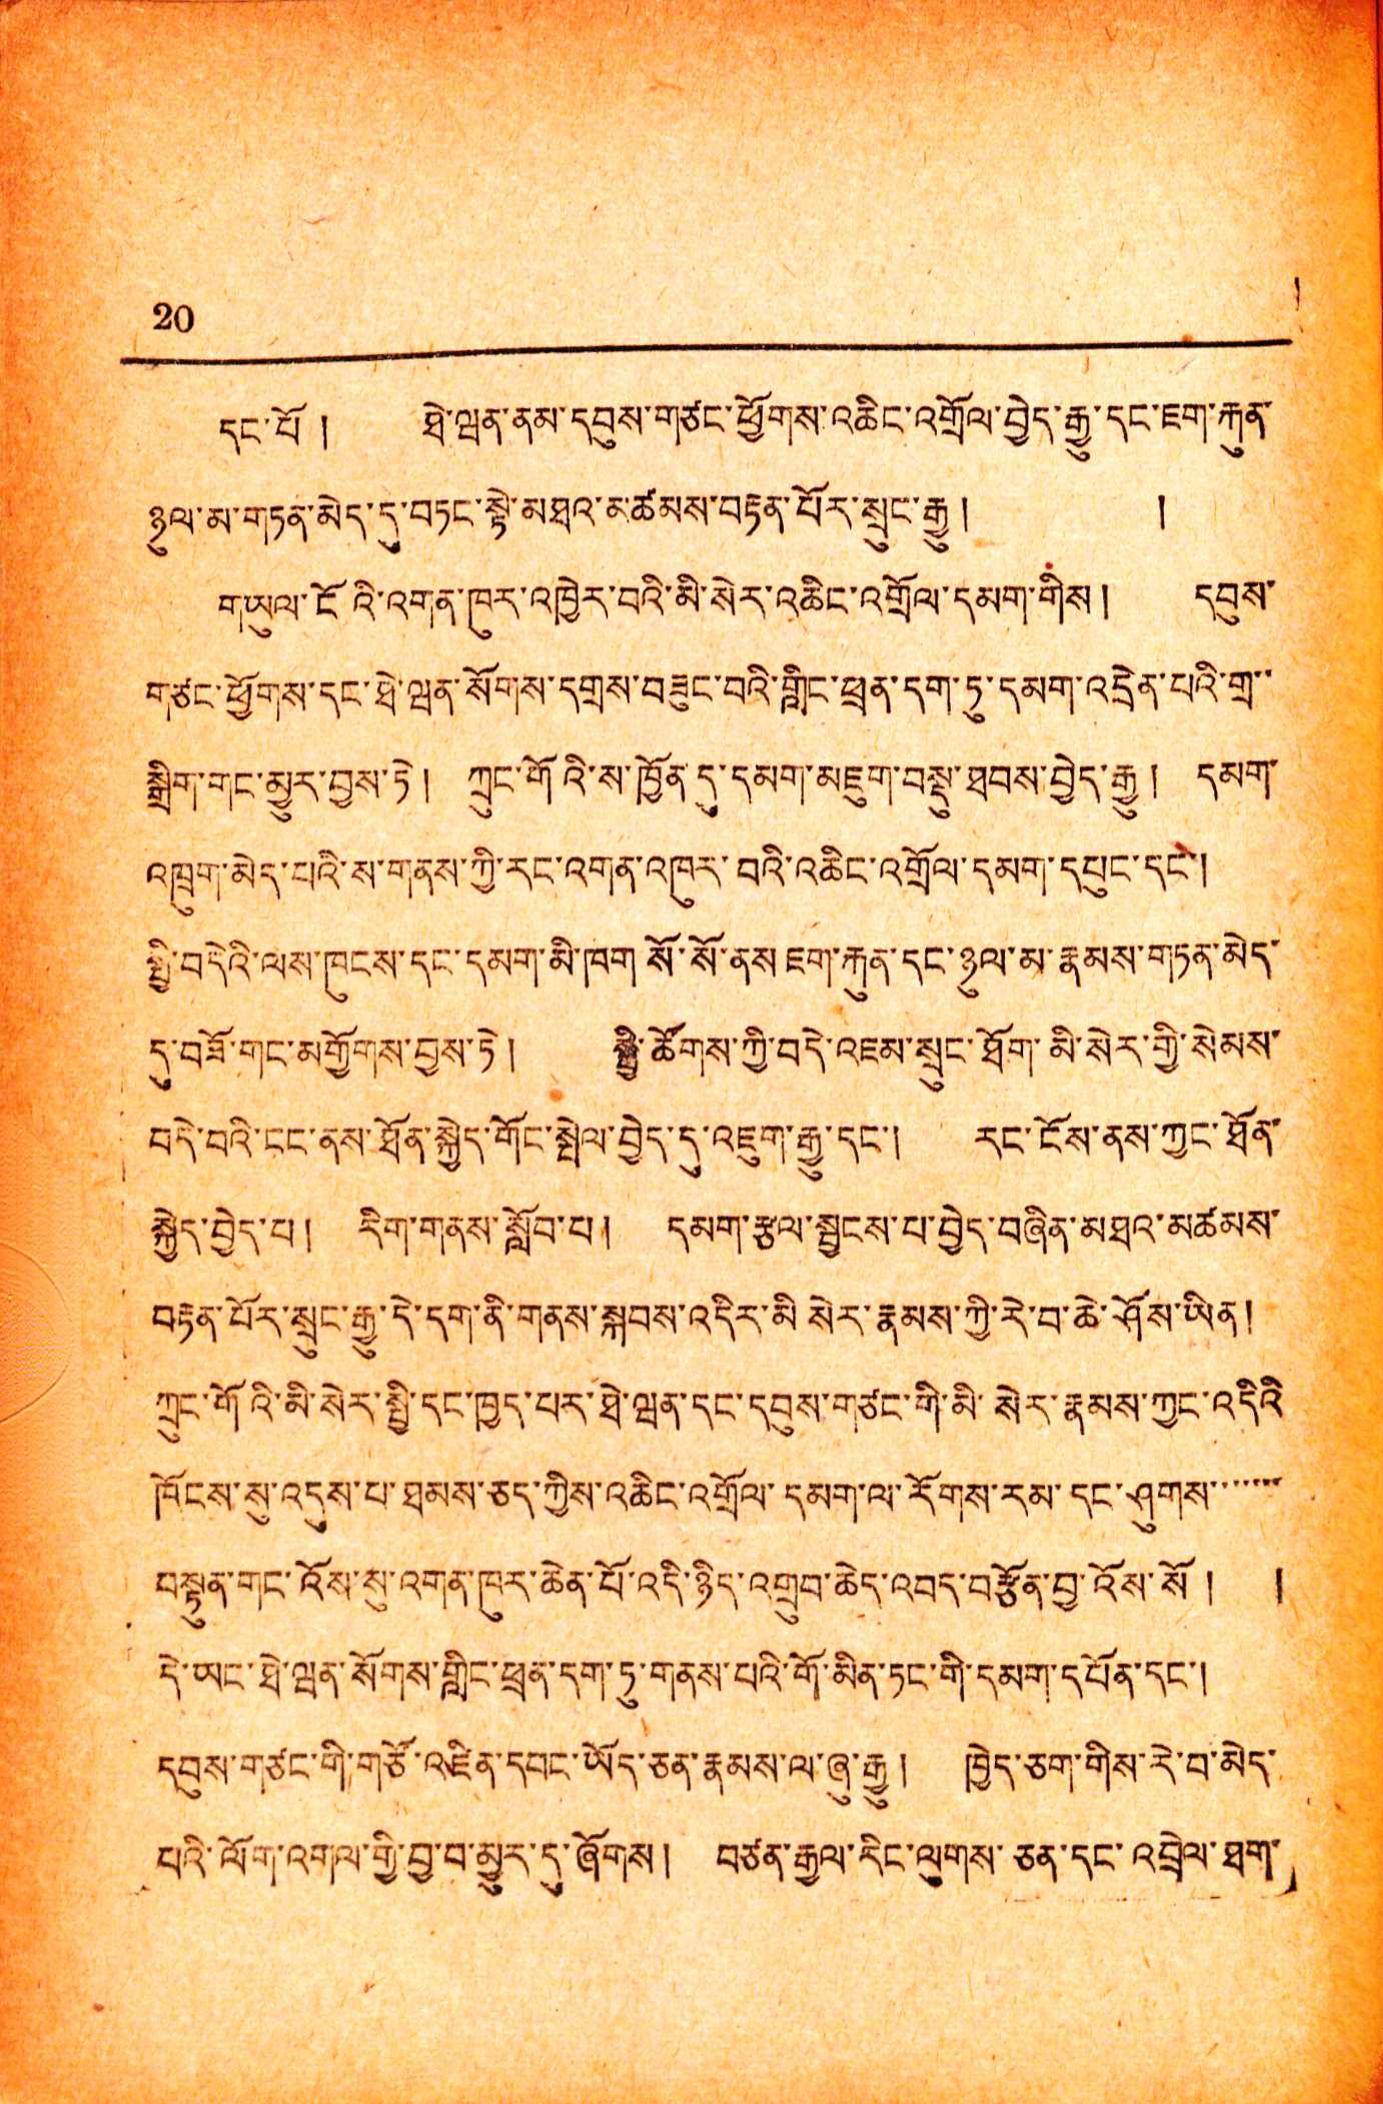20
དང་པོ ། ཐེ་ཝན་ནམ་དབུས་གཙང་ཕྱོགས་འཆིང་འགྲོལ་བྱེད་རྒྱུ་དང་ཇག་རྐུན་
ཉུལ་མ་གཏན་མེད་དུ་བཏང་སྟེ་མཐའ་མཚམས་བརྟན་པོར་སྲུང་རྒྱུ ། །
གཡུལ་ངོའི་འགན་ཁུར་འཁྱེར་བའི་མི་སེར་འཆིང་འགྲོལ་དམག་གིས ། དབུས་
གཙང་ཕྱོགས་དང་ཐེ་ཝན་སོགས་དགྲས་བཟུང་བའི་གླིང་ཕྲན་དག་ཏུ་དམག་འདྲེན་པའི་གྲ་་
སྒྲིག་གང་མྱུར་བྱས་ཏེ ། ཀྲུང་གོའི་ས་ཁྱོན་དུ་དམག་མཇུག་བསྡུ་ཐབས་བྱེད་རྒྱུ ། དམག་
འཁྲུག་མེད་པའི་ས་གནས་ཀྱི་རང་འགན་འཁུར་བའི་འཆིང་འགྲོལ་དམག་དཔུང་དང་།
སྤྱི་བདེའི་ལས་ཁུངས་དང་དམག་མི་ཁག སོ་སོ་ནས ཇག་རྐུན་དང་ཉུལ་མ་རྣམས་གཏན་མེད་
དུ་བཟོ་གང་མགྱོགས་བྱས་ཏེ ། སྤྱི་ཚོགས་ཀྱི་བདེ་འཇམ་སྲུང་ཐོག་མི་སེར་གྱི་སེམས་
བདེ་བའི་ངང་ནས་ཐོན་སྐྱེད་གོང་སྤེལ་བྱེད་དུ་འཇུག་རྒྱུ་དང་། རང་ངོས་ནས་ཀྱང་ཐོན་
སྐྱེད་བྱེད་པ ། རིག་གནས་སློབ་པ ། དམག་རྩལ་སྦྱངས་པ་བྱེད་བཞིན་མཐའ་མཚམས་
བརྟན་པོར་སྲུང་རྒྱུ་དེ་དག་ནི་གནས་སྐབས་འདིར་མི སིར་རྣམས་ཀྱི་རེ་བ་ཆེ་ཤོས་ཡིན །
ཀྲུང་གོའི་མི་སེར་སྤྱི་དང་ཁྱད་པར་ཐེ་ཝན་དང་དབུས་གཏང་གི་མི་སེར་རྣམས་ཀྱང་འདིའི
ཁོངས་སུ་འདུས་པ་ཐམས་ཅད་ཀྱིས་འཆིང་འགྲོལ་དམག་ལ་རོགས་རམ་དང་ཤུགས་་་་་་་
བལྟུན་གང་འོས་སུ་འགན་ཁུར་ཆེན་པོ་འདི་ཉིད་འགྲུབ་ཆེད་འབད་བརྩོན་བྱ་འོས་སོ ། །
དེ་ཡང་ཐེ་ཝན་སོགས་གླིང་ཕྲན་དག་ཏུ་གནས་པའི་གོ་མིན་ཏང་གི་དམག་དཔོན་དང་།
དབུས་གཙང་གི་གཙོ་འཛིན་དབང་ཡོད་ཅན་རྣམས་ལ་ཞུ་རྒྱུ ། ཁྱེད་ཅག་གིས་རེ་བ་མེད་
པའི་ལོག་འགལ་གྱི་བྱ་བ་མྱུར་དུ་ཞོགས ། བཙན་རྒྱལ་རིང་ལུགས་ཅན་དང་འབྲེལ་ཐག་
